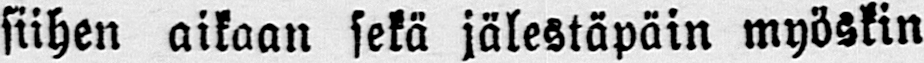siihen aikaan sekä jälestäpäin myöskin
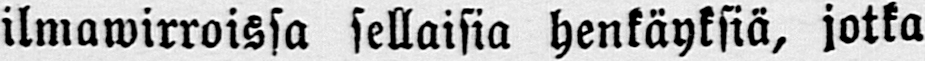ilmawirroissa sellaisia henkäyksiä, jotka
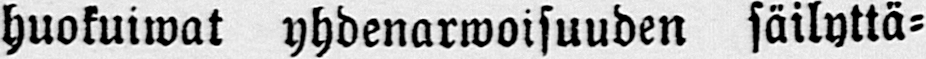huokuiwat yhdenarmoisuuden säilyttä-
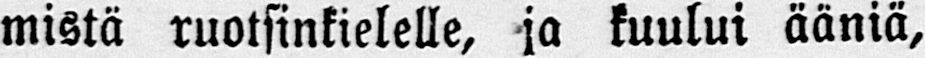mistä ruotsinkielelle, ja kuului ääniä,
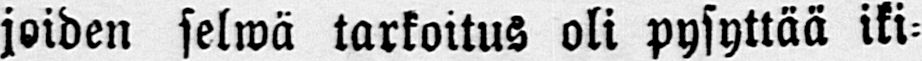joiden selwä tarkoitus oli pysyttää iki-
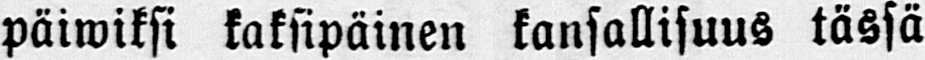päiwiksi kaksipäinen kansallisuus tässä
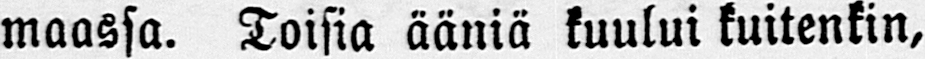maassa. Toisia ääniä kuului kuitenkin,
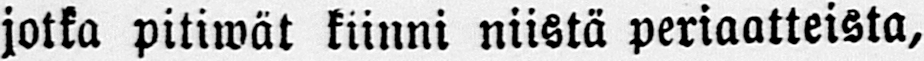joika pitiwät kiinni niistä periaatteista,
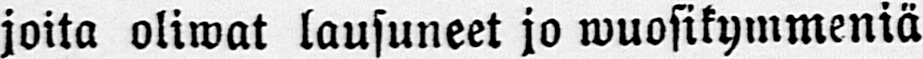joita oliwat lausuneet jo wuosikymmeniä
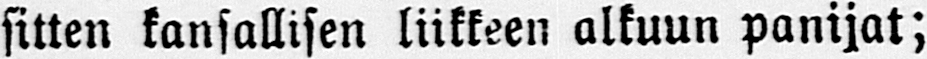sitten kansallisen liikkeen alkuun panijat;
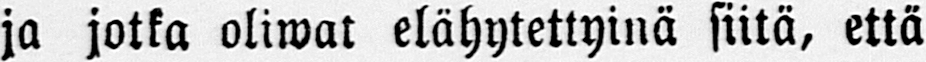ja jotka oliwat elähytettyinä siitä, että
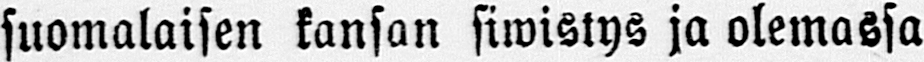suomalaisen kansan siwistys ja olemassa
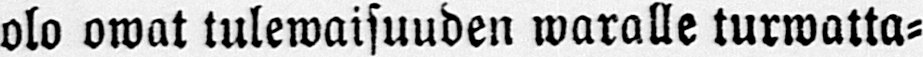olo omat tulewaisuuden waralle turwatta-
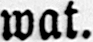wat.
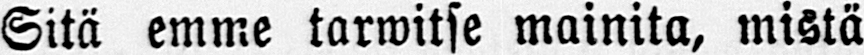Sitä emme tarwitse mainita, mistä
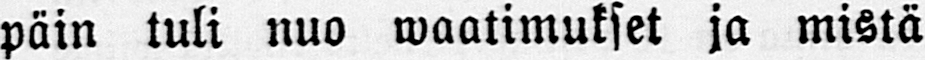päin tuli nuo waatimukset ja mistä
